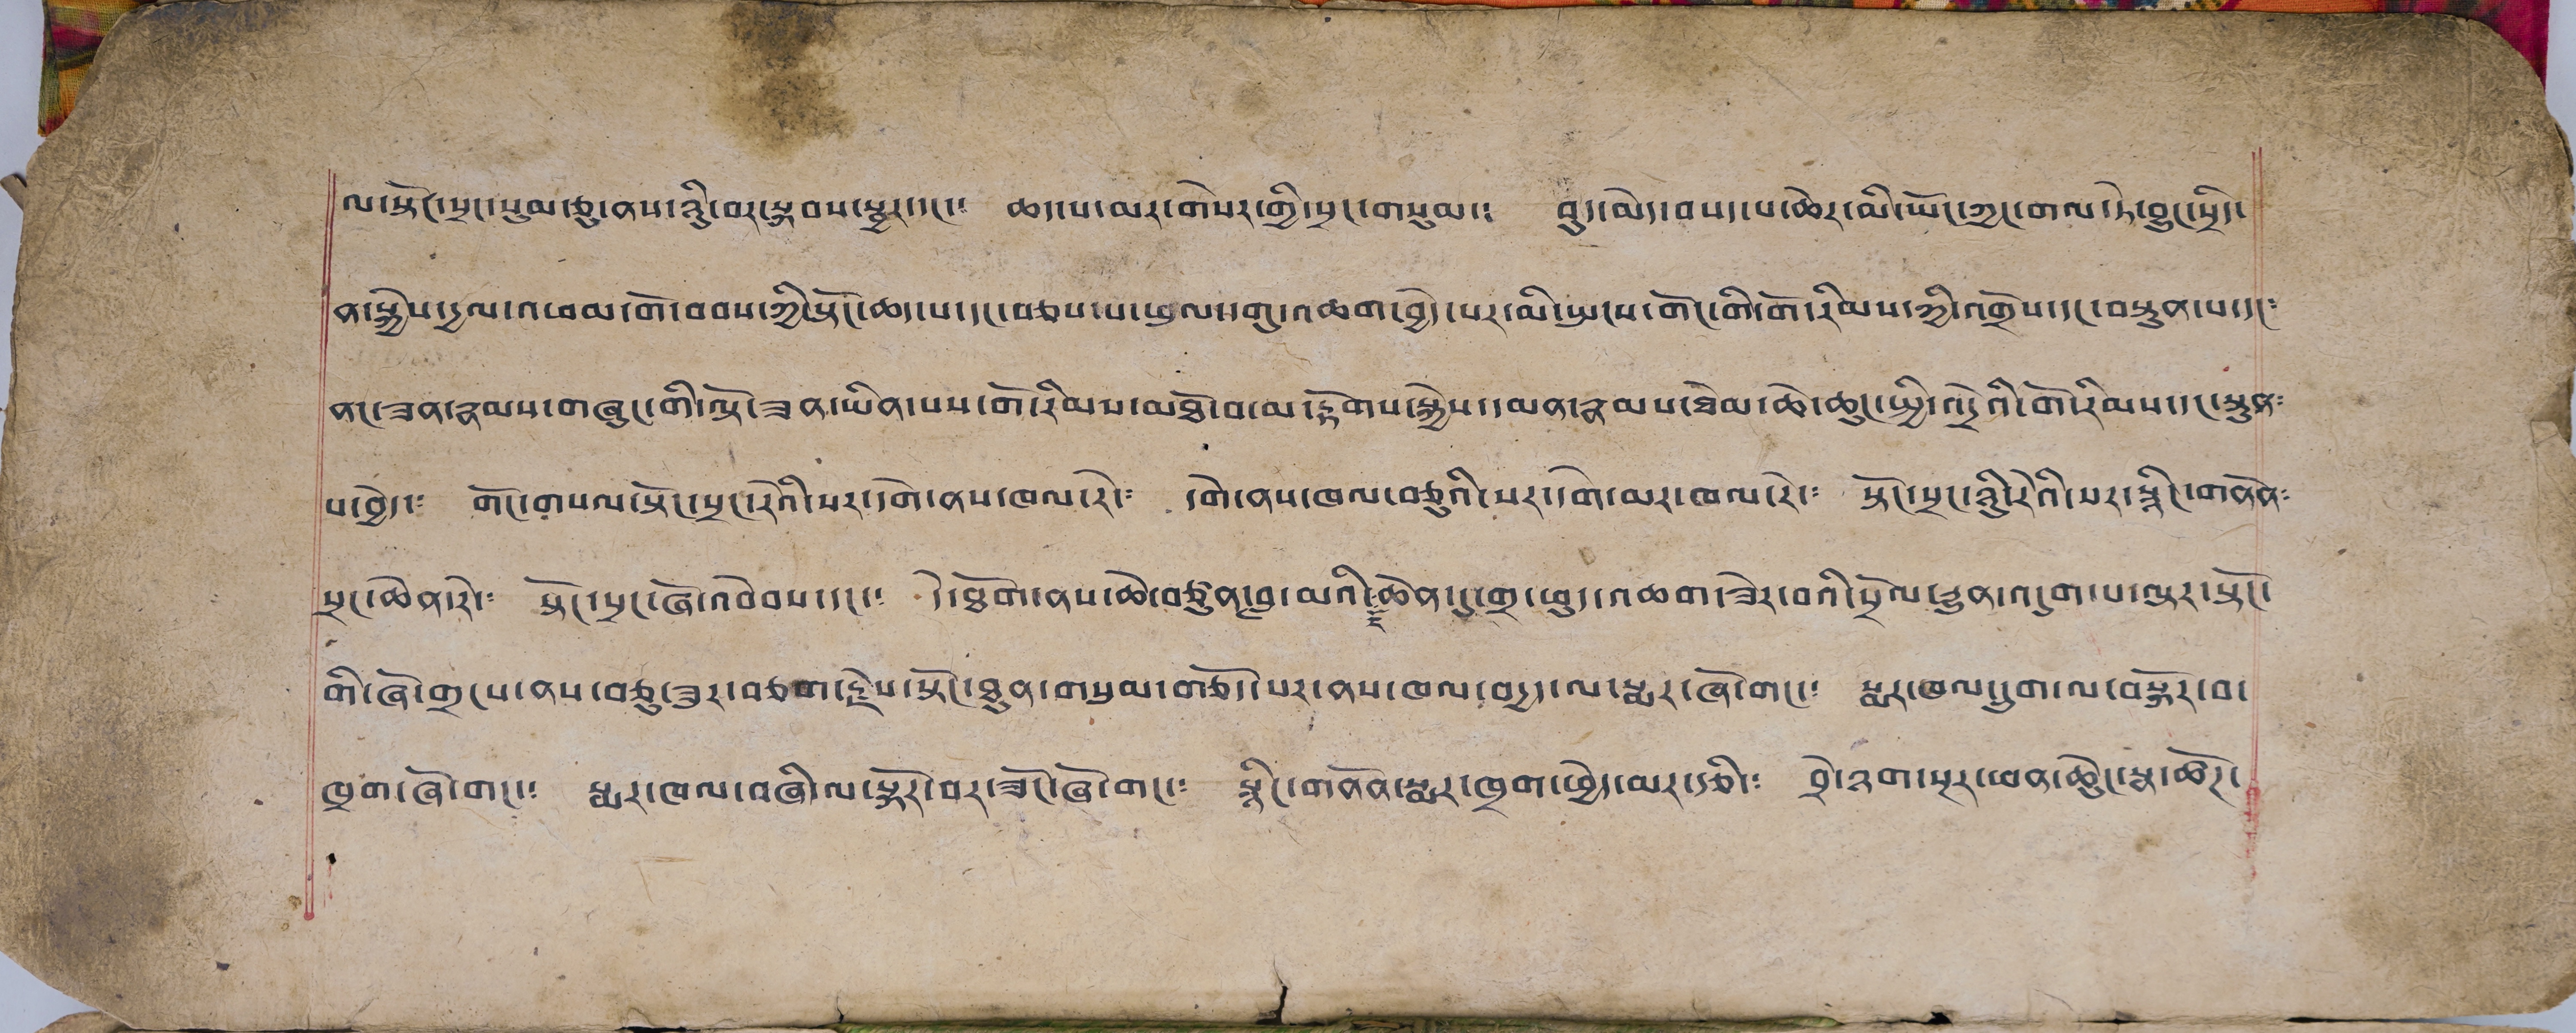ལ་སྟོང་སྲང་སུམ་ཅུ་ནས་ཉིུ་བར་སྐབས་སྦྱར་དང་༴ ཆད་པ་མར་གསེར་གྱི་སྲང་གསུམ་༴ བུད་མེད་བསད་པ་ཆེར་མི་ཡོང་ཀྱང་གལ་ཏེ་བྱུང་སྲིད་
ན་སྐྱེས་རྒྱལ་འཕམ་གོ་བབས་ཀྱི་སྟོང་ཆད་པ་དང་བཅས་པ་ཕྲལ་དགུ་འཆག་བྱེད་པར་མི་སྤངས་གོང་གི་གོ་རིམས་ཀྱི་འགྲོས་དང་བསྟུན་པ་དང༴
ནང་ཟན་རྣམས་གཞུང་གི་ལྟོ་ཟན་ཡིན་པས་གོ་རིམས་མཐོ་བ་མ་རྟོགས་སྐྱེས་དམན་རྣམས་ཐེམ་ཆེ་ཆུང་སྤྱི་འདྲེའི་གོ་རིམས་དང་སྟུན༴
པ་བྱེད་༴ གོང་གསལ་སྟོང་སྲང་རེའི་སར་དགེ་ནས་ཁལ་རེ་༴ དགེ་ནས་ཁལ་བཅུའི་སར་དགེ་མར་ཁལ་རེ་༴ སྟོང་སྲང་ཉིུ་རེའི་པར་སྙིང་གནོན༴
སྲང་ཆེན་རེ་༴ སྟོང་སྲང་ཞོ་འབེབས་དང་༴ དེ་ཐོག་ནས་ཆེ་བཙུན་བླ་མའི་ངོ་ཆེན་དུ་གྲ་ཕུད་འཆག་ཟེར་བའི་སྲོལ་རྒྱུན་འདུག་པ་ལྟར་སྟོང་
གི་ཞོ་གྲངས་ནས་བཅུ་ཟུར་བཅག་རྗེས་སྟོང་ཐུན་གསུམ་གཅོད་པར་ནས་ཁལ་བདྱད་ལ་སྨར་ཞོ་གང་༴ སྨར་ཁལ་དྲུག་ལ་བསྐོར་བ་
ཁྲག་ཞེ་གང་༴ སྨར་ཁལ་བཞི་ལ་སྐོར་བར་ཟོང་ཞོ་གང་༴ སྙིང་གནོན་སྨར་ཁྲག་ཕྱེད་མར་རྩི་༏ བྲེ་ཉག་སྔར་ཕན་ཆེུང་སྣ་ཚོཊ་
